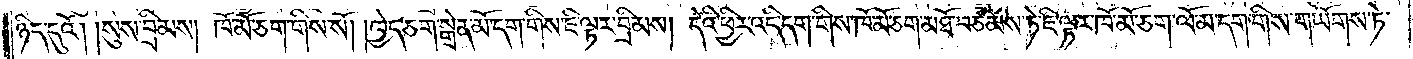ཉིད་དུའོ། །སུས་བྲིམས། ཁོ་མོ་ཅག་གིས་སོ། །ཁྱེད་ཅག་སྒྲེན་མོ་དག་གིས་ཇི་ལྟར་བྲིམས། དེའི་ཕྱིར་འདི་དག་གིས་ཁོ་མོ་ཅག་མཐོ་བཙམས་ཏེ་ཇི་ལྟར་ཁོ་མོ་ཅག་ལོ་མ་དག་གིས་གཡོགས་ཏེ་
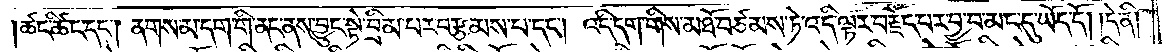ཚང་ཚིང་དང༌། ནགས་མ་དག་གི་ནང་ནས་བྱུང་སྟེ་བྲིམ་པར་བརྩམས་པ་དང༌། འདི་དག་གིས་མཐོ་བཙམས་ཏེ་འདི་ལྟར་བརྗོད་པར་བྱ་བ་མང་དུ་ཡོད་དོ། །དེ་ནི།
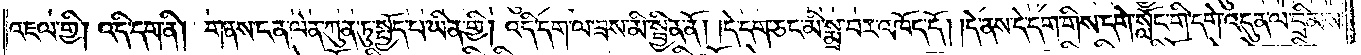འཇལ་གྱི། འདི་དག་ནི། གནས་ངན་ལེན་ཀུན་ཏུ་སྤྱོད་པ་ཡིན་གྱི། འདི་དག་ལ་ཟས་མི་སྦྱིན་ནོ། །དེ་དག་ཅང་མི་སྨྲ་བར་འཁོད་དོ། །དེ་ནས་དེ་དག་གིས་དགེ་སློང་གི་དགེ་འདུན་ལ་བྲིམས་
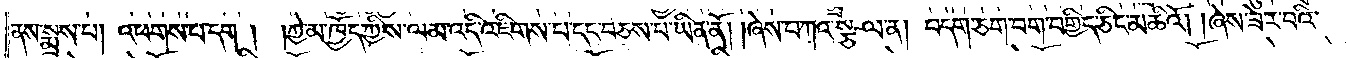ནས་སྨྲས་པ། འཕགས་པ་དག ། །ཀྱེ་མ་ཁྱོད་ཀྱིས་ལམ་འདི་འཇིགས་པ་དང་བཅས་པ་ཡིན་ནོ། །ཞེས་བཀའ་སྩལ་ན། བདག་ཅག་བག་བགྱིད་ཅིང་མཆིའོ། །ཞེས་ཟེར་བའི་
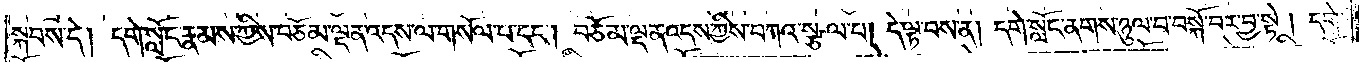སྐབས་དེ། དགེ་སློང་རྣམས་ཀྱིས་བཅོམ་ལྡན་འདས་ལ་གསོལ་པ་དང༌། བཅོམ་ལྡན་འདས་ཀྱིས་བཀའ་སྩལ་པ། དེ་ལྟ་བས་ན། དགེ་སློང་ནགས་ཉུལ་བ་བསྐོ་བར་བྱ་སྟེ། དགེ་
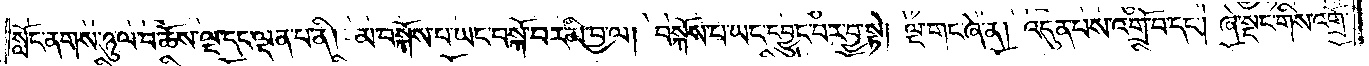སློང་ནགས་ཉུལ་བ་ཆོས་ལྔ་དང་ལྡན་པ་ནི། མ་བསྐོས་པ་ཡང་བསྐོ་བར་མི་བྱ་ལ། བསྐོས་པ་ཡང་དབྱུང་བར་བྱ་སྟེ། ལྔ་གང་ཞེ་ན། འདུན་པས་འགྲོ་བ་དང༌། ཞེ་སྡང་གིས་འགྲོ་
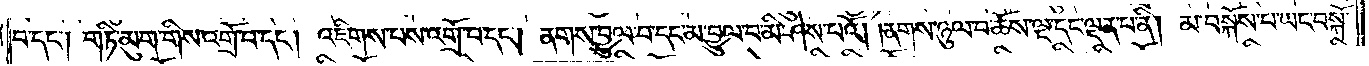བ་དང༌། གཏི་མུག་གིས་འགྲོ་བ་དང༌། འཇིགས་པས་འགྲོ་བ་དང༌། ནགས་བྱུལ་བ་དང་མ་བྱུལ་བ་མི་ཤེས་པའོ། །ནགས་ཉུལ་བ་ཆོས་ལྔ་དང་ལྡན་པ་ནི། མ་བསྐོས་པ་ཡང་བསྐོ་
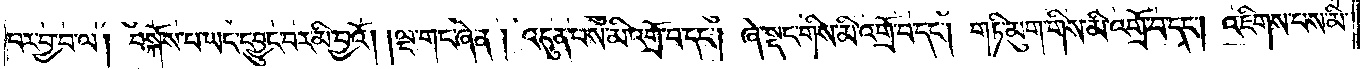བར་བྱ་བ་ལ། བསྐོས་པ་ཡང་དབྱུང་བར་མི་བྱའོ། །ལྔ་གང་ཞེ་ན། འདུན་པས་མི་འགྲོ་བ་དང༌། ཞེ་སྡང་གིས་མི་འགྲོ་བ་དང༌། གཏི་མུག་གིས་མི་འགྲོ་བ་དང༌། འཇིགས་པས་མི་
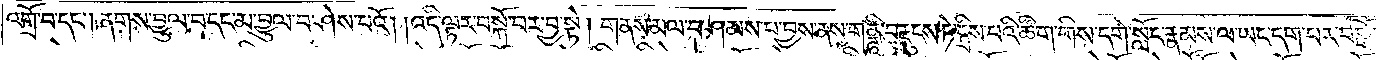འགྲོ་བ་དང༌། ནགས་བྱུལ་བ་དང་མ་བྱུལ་བ་ཤེས་པའོ། །འདི་ལྟར་བསྐོ་བར་བྱ་སྟེ། གནས་མལ་བཤམས་པ་བྱས་ནས་གནྜཱི་བརྡུངས་ཏེ་དྲིས་པའི་ཚིག་གིས་དགེ་སློང་རྣམས་ལ་ཡང་དག་པར་བསྒོ་
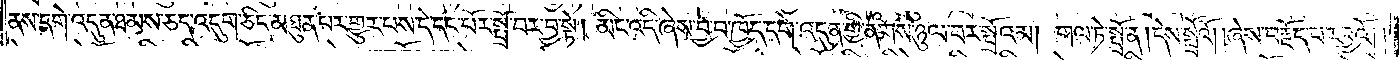ནས་དགེ་འདུན་ཐམས་ཅད་འདུག་ཅིང་མཐུན་པར་གྱུར་པས་དེ་དང་པོར་སྤྲོ་བར་བྱ་སྟེ། མིང་འདི་ཞེས་བྱ་བ་ཁྱོད་དགེ་འདུན་གྱི་ནགས་ཉུལ་བར་སྤྲོའམ། གལ་ཏེ་སྤྲོ་ན་།དེས་སྤྲོའོ། །ཞེས་བརྗོད་པར་བྱའོ། །
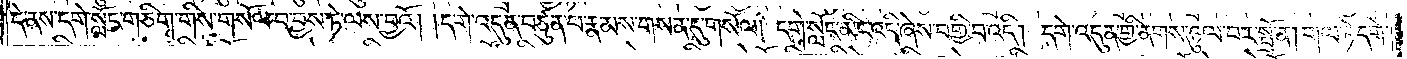དེ་ནས་དགེ་སློང་གཅིག་གིས་གསོལ་བ་བྱས་ཏེ་ལས་བྱའོ། །དགེ་འདུན་བཙུན་པ་རྣམས་གསན་དུ་གསོལ། དགེ་སློང་མིང་འདི་ཞེས་བགྱི་བ་འདི། དགེ་འདུན་གྱི་ནགས་ཉུལ་བར་སྤྲོ་ན། གལ་ཏེ་དགེ་
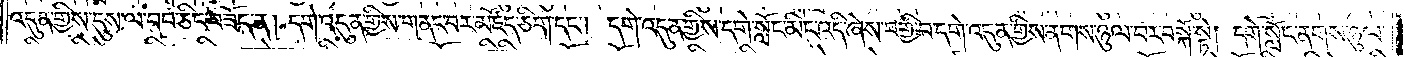འདུན་གྱིས་དུས་ལ་བབ་ཅིང་བཟོད་ན། དགེ་འདུན་གྱིས་གནང་བར་མཛོད་ཅིག་དང༌། དགེ་འདུན་གྱིས་དགེ་སློང་མིང་འདི་ཞེས་བགྱི་བ་དགེ་འདུན་གྱིས་ནགས་ཉུལ་བར་བསྐོ་སྟེ། དགེ་སློང་ནགས་ཉུལ་
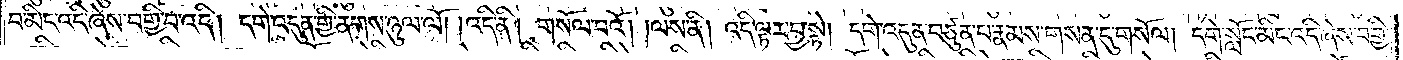བ་མིང་འདི་ཞེས་བགྱི་བ་འདི། དགེ་འདུན་གྱི་ནགས་ཉུལ་ལོ། །འདི་ནི། གསོལ་བའོ། །ལས་ནི། འདི་ལྟར་བྱ་སྟེ། དགེ་འདུན་བཙུན་པ་རྣམས་གསན་དུ་གསོལ། དགེ་སློང་མིང་འདི་ཞེས་བགྱི་
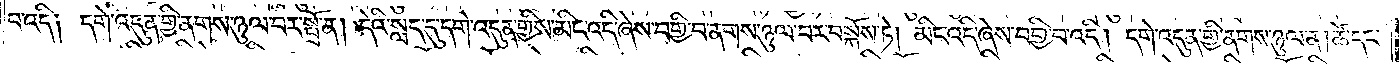བ་འདི། དགེ་འདུན་གྱི་ནགས་ཉུལ་བར་སྤྲོ་ན། དེའི་སླད་དུ་དགེ་འདུན་གྱིས་མིང་འདི་ཞེས་བགྱི་བ་ནགས་ཉུལ་བར་བསྐོས་ཏེ། མིང་འདི་ཞེས་བགྱི་བ་འདི། དགེ་འདུན་གྱི་ནགས་ཉུལ་ན། ཚེ་དང་
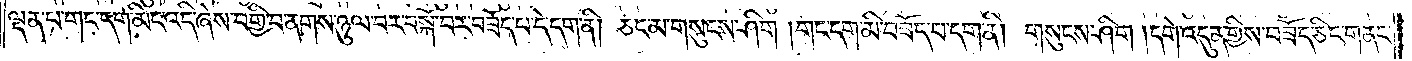ལྡན་པ་གང་དག་མིང་འདི་ཞེས་བགྱི་བ་ནགས་ཉུལ་བར་བསྐོ་བར་བཟོད་པ་དེ་དག་ནི། ཅང་མ་གསུངས་ཤིག །གང་དག་མི་བཟོད་པ་དག་ནི། གསུངས་ཤིག །དགེ་འདུན་གྱིས་བཟོད་ཅིང་གནང་
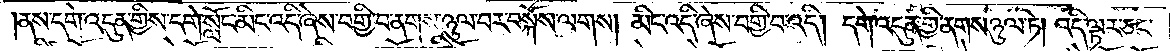ནས་དགེ་འདུན་གྱིས་དགེ་སློང་མིང་འདི་ཞེས་བགྱི་བ་ནགས་ཉུལ་བར་བསྐོས་ལགས། མིང་འདི་ཞེས་བགྱི་བ་འདི། དགེ་འདུན་གྱི་ནགས་ཉུལ་ཏེ། འདི་ལྟར་ཅང་
